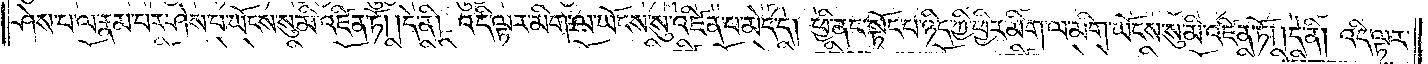ཤེས་པ་ལ་རྣམ་པར་ཤེས་པ་ཡོངས་སུ་མི་འཛིན་ཏོ། །དེ་ནི། འདི་ལྟར་མིག་ལ་ཡོངས་སུ་འཛིན་པ་མེད་དེ། ཕྱི་ནང་སྟོང་པ་ཉིད་ཀྱི་ཕྱིར་མིག་ལ་མིག་ཡོངས་སུ་མི་འཛིན་ཏོ། །དེ་ནི། འདི་ལྟར་
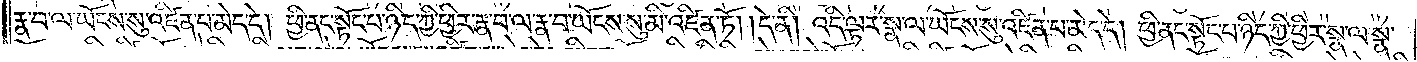རྣ་བ་ལ་ཡོངས་སུ་འཛིན་པ་མེད་དེ། ཕྱི་ནང་སྟོང་པ་ཉིད་ཀྱི་ཕྱིར་རྣ་བ་ལ་རྣ་བ་ཡོངས་སུ་མི་འཛིན་ཏོ། །དེ་ནི། འདི་ལྟར་སྣ་ལ་ཡོངས་སུ་འཛིན་པ་མེད་དེ། ཕྱི་ནང་སྟོང་པ་ཉིད་ཀྱི་ཕྱིར་སྣ་ལ་སྣ་
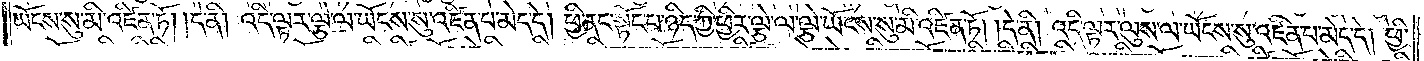ཡོངས་སུ་མི་འཛིན་ཏོ། །དེ་ནི། འདི་ལྟར་ལྕེ་ལ་ཡོངས་སུ་འཛིན་པ་མེད་དེ། ཕྱི་ནང་སྟོང་པ་ཉིད་ཀྱི་ཕྱིར་ལྕེ་ལ་ལྕེ་ཡོངས་སུ་མི་འཛིན་ཏོ། །དེ་ནི། འདི་ལྟར་ལུས་ལ་ཡོངས་སུ་འཛིན་པ་མེད་དེ། ཕྱི་
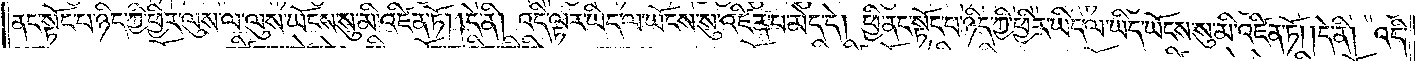ནང་སྟོང་པ་ཉིད་ཀྱི་ཕྱིར་ལུས་ལ་ལུས་ཡོངས་སུ་མི་འཛིན་ཏོ། །དེ་ནི། འདི་ལྟར་ཡིད་ལ་ཡོངས་སུ་འཛིན་པ་མེད་དེ། ཕྱི་ནང་སྟོང་པ་ཉིད་ཀྱི་ཕྱིར་ཡིད་ལ་ཡིད་ཡོངས་སུ་མི་འཛིན་ཏོ། །དེ་ནི། འདི་
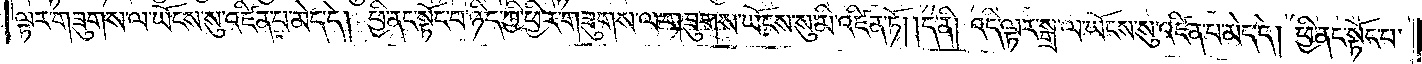ལྟར་གཟུགས་ལ་ཡོངས་སུ་འཛིན་པ་མེད་དེ། ཕྱི་ནང་སྟོང་པ་ཉིད་ཀྱི་ཕྱིར་གཟུགས་ལ་གཟུགས་ཡོངས་སུ་མི་འཛིན་ཏོ། །དེ་ནི། འདི་ལྟར་སྒྲ་ལ་ཡོངས་སུ་འཛིན་པ་མེད་དེ། ཕྱི་ནང་སྟོང་པ་
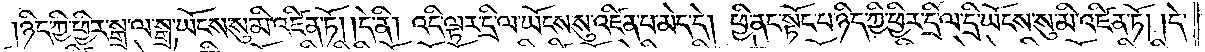ཉིད་ཀྱི་ཕྱིར་སྒྲ་ལ་སྒྲ་ཡོངས་སུ་མི་འཛིན་ཏོ། །དེ་ནི། འདི་ལྟར་དྲི་ལ་ཡོངས་སུ་འཛིན་པ་མེད་དེ། ཕྱི་ནང་སྟོང་པ་ཉིད་ཀྱི་ཕྱིར་དྲི་ལ་དྲི་ཡོངས་སུ་མི་འཛིན་ཏོ། །དེ་
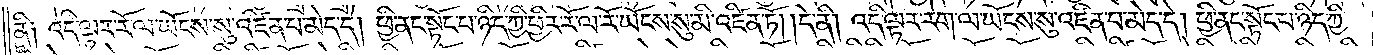ནི། འདི་ལྟར་རོ་ལ་ཡོངས་སུ་འཛིན་པ་མེད་དེ། ཕྱི་ནང་སྟོང་པ་ཉིད་ཀྱི་ཕྱིར་རོ་ལ་རོ་ཡོངས་སུ་མི་འཛིན་ཏོ། །དེ་ནི། འདི་ལྟར་རེག་ལ་ཡོངས་སུ་འཛིན་པ་མེད་དེ། ཕྱི་ནང་སྟོང་པ་ཉིད་ཀྱི་
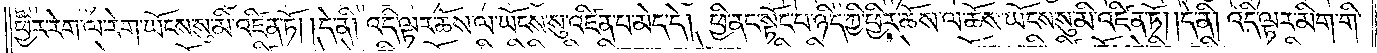ཕྱིར་རེག་ལ་རེག་ཡོངས་སུ་མི་འཛིན་ཏོ། །དེ་ནི། འདི་ལྟར་ཆོས་ལ་ཡོངས་སུ་འཛིན་པ་མེད་དེ། ཕྱི་ནང་སྟོང་པ་ཉིད་ཀྱི་ཕྱིར་ཆོས་ལ་ཆོས་ཡོངས་སུ་མི་འཛིན་ཏོ། །དེ་ནི། འདི་ལྟར་མིག་གི་
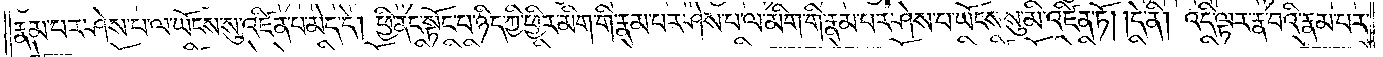རྣམ་པར་ཤེས་པ་ལ་ཡོངས་སུ་འཛིན་པ་མེད་དེ། ཕྱི་ནང་སྟོང་པ་ཉིད་ཀྱི་ཕྱིར་མིག་གི་རྣམ་པར་ཤེས་པ་ལ་མིག་གི་རྣམ་པར་ཤེས་པ་ཡོངས་སུ་མི་འཛིན་ཏོ། །དེ་ནི། འདི་ལྟར་རྣ་བའི་རྣམ་པར་
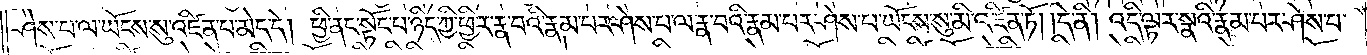ཤེས་པ་ལ་ཡོངས་སུ་འཛིན་པ་མེད་དེ། ཕྱི་ནང་སྟོང་པ་ཉིད་ཀྱི་ཕྱིར་རྣ་བའི་རྣམ་པར་ཤེས་པ་ལ་རྣ་བའི་རྣམ་པར་ཤེས་པ་ཡོངས་སུ་མི་འཛིན་ཏོ། །དེ་ནི། འདི་ལྟར་སྣའི་རྣམ་པར་ཤེས་པ་
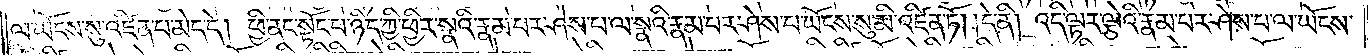ལ་ཡོངས་སུ་འཛིན་པ་མེད་དེ། ཕྱི་ནང་སྟོང་པ་ཉིད་ཀྱི་ཕྱིར་སྣའི་རྣམ་པར་ཤེས་པ་ལ་སྣའི་རྣམ་པར་ཤེས་པ་ཡོངས་སུ་མི་འཛིན་ཏོ། །དེ་ནི། འདི་ལྟར་ལྕེའི་རྣམ་པར་ཤེས་པ་ལ་ཡོངས་
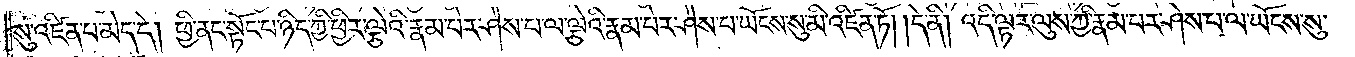སུ་འཛིན་པ་མེད་དེ། ཕྱི་ནང་སྟོང་པ་ཉིད་ཀྱི་ཕྱིར་ལྕེའི་རྣམ་པར་ཤེས་པ་ལ་ལྕེའི་རྣམ་པར་ཤེས་པ་ཡོངས་སུ་མི་འཛིན་ཏོ། །དེ་ནི། འདི་ལྟར་ལུས་ཀྱི་རྣམ་པར་ཤེས་པ་ལ་ཡོངས་སུ་
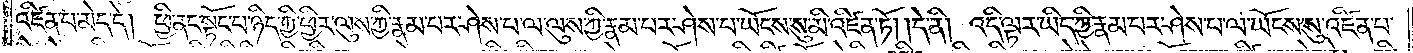འཛིན་པ་མེད་དེ། ཕྱི་ནང་སྟོང་པ་ཉིད་ཀྱི་ཕྱིར་ལུས་ཀྱི་རྣམ་པར་ཤེས་པ་ལ་ལུས་ཀྱི་རྣམ་པར་ཤེས་པ་ཡོངས་སུ་མི་འཛིན་ཏོ། །དེ་ནི། འདི་ལྟར་ཡིད་ཀྱི་རྣམ་པར་ཤེས་པ་ལ་ཡོངས་སུ་འཛིན་པ་
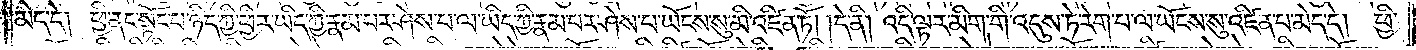མེད་དེ། ཕྱི་ནང་སྟོང་པ་ཉིད་ཀྱི་ཕྱིར་ཡིད་ཀྱི་རྣམ་པར་ཤེས་པ་ལ་ཡིད་ཀྱི་རྣམ་པར་ཤེས་པ་ཡོངས་སུ་མི་འཛིན་ཏོ། །དེ་ནི། འདི་ལྟར་མིག་གི་འདུས་ཏེ་རེག་པ་ལ་ཡོངས་སུ་འཛིན་པ་མེད་དེ། ཕྱི་
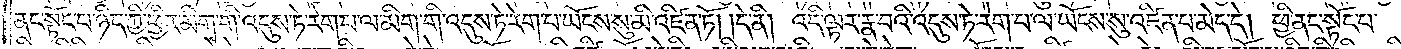ནང་སྟོང་པ་ཉིད་ཀྱི་ཕྱིར་མིག་གི་འདུས་ཏེ་རེག་པ་ལ་མིག་གི་འདུས་ཏེ་རེག་པ་ཡོངས་སུ་མི་འཛིན་ཏོ། །དེ་ནི། འདི་ལྟར་རྣ་བའི་འདུས་ཏེ་རེག་པ་ལ་ཡོངས་སུ་འཛིན་པ་མེད་དེ། ཕྱི་ནང་སྟོང་པ་
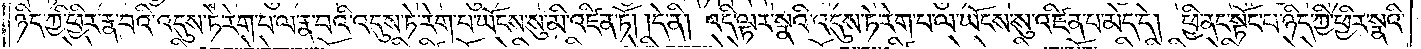ཉིད་ཀྱི་ཕྱིར་རྣ་བའི་འདུས་ཏེ་རེག་པ་ལ་རྣ་བའི་འདུས་ཏེ་རེག་པ་ཡོངས་སུ་མི་འཛིན་ཏོ། །དེ་ནི། འདི་ལྟར་སྣའི་འདུས་ཏེ་རེག་པ་ལ་ཡོངས་སུ་འཛིན་པ་མེད་དེ། ཕྱི་ནང་སྟོང་པ་ཉིད་ཀྱི་ཕྱིར་སྣའི་
